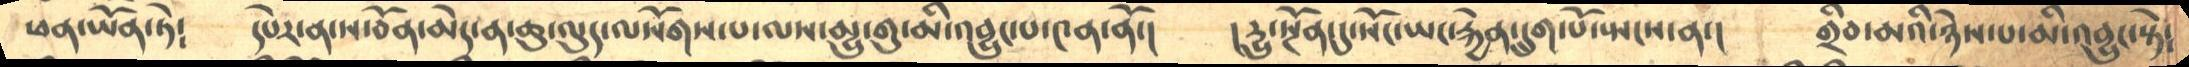ཕན་ཡོན་ཏེ༴   དཔེར་ན་ས་བོན་མེད་ན་ཆུ་ལུད་ལསོགས་པ་ལས་མྱུ་གུ་མི་འབྱུང་པ་༤ན་ནོ་།    །དྱུ་སྔོན་དུ་སོང་ཡང་རྐྱེན་དརུག་པོ་སྤངས་ན་།     གྲིབ་མའི་ཉེས་པ་མི་འབྱུང་སྟེ།
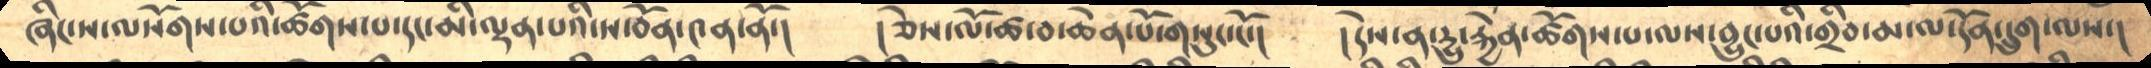ཞིང་ས་ལསོགས་པའི་ཚོགས་པ་དང་མི་ལྡན་པའི་ས་བོན་༤ན་ནོ་།     །ཅེས་ལོ་ཙ་བ་ཆེན་པོ་གསུང་ངོ་།     །དེས་ན་དྱུ་རྐྱེན་ཚོགས་པ་ལས་བྱུང་པའི་གྲིབ་མ་ལ་དོན་དྲུག་ལས་།
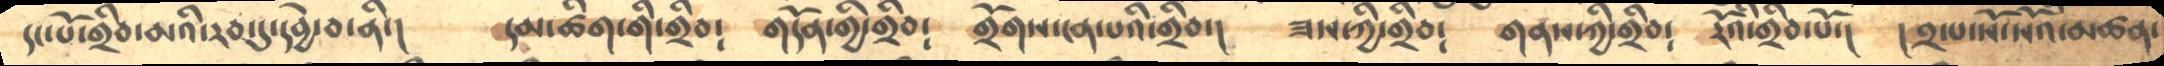དང་པོ་གྲིབ་མའི་རབ་དུ་དབྱེ་བ་ནི་།     དམ་ཚིག་གི་གྲིབ༴    གདོན་གྱི་གྲིབ༴    གྲོགས་ངན་པའི་གྲིབ་།     ཟས་ཀྱི་གྲིབ༴   གནས་ཀྱི་གྲིབ༴  རོའི་གྲིབ་པོ་།    །༢་པ་སོ་སོའི་མཚན་
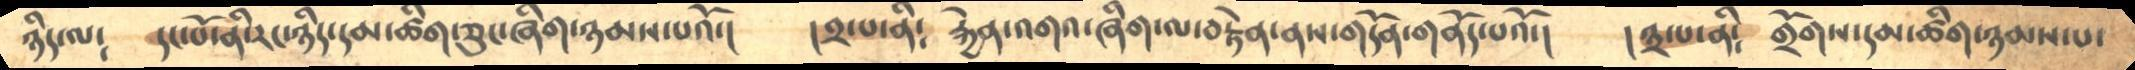ཉིད་ལ༴    དང་པོ་ནི་རང་ཉིད་དམ་ཚིག་ཅུང་ཞིག་ཉམས་པའོ་།    །༢་པ་ནི༴    རྐྱེན་འགའ་ཞིག་ལ་བརྟེན་ནས་གདོན་གནོད་པའོ་།   །༣་པ་ནི༴    གྲོགས་དམ་ཚིག་ཉམས་པ་
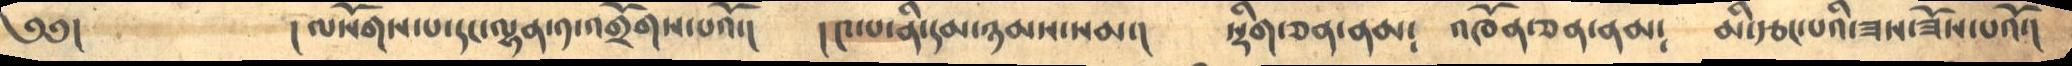༄༅།          །ལསོགས་པ་དང་ལྷན་༡་འགྲོགས་པའོ་།     །༤་པ་ནི་དམ་ཉམས་སམ་།   སྡིག་ཅན་ནམ༴    འཁོན་ཅན་ནམ༴    མི་རྩང་པའི་ཟས་ཟོས་པའོ་།
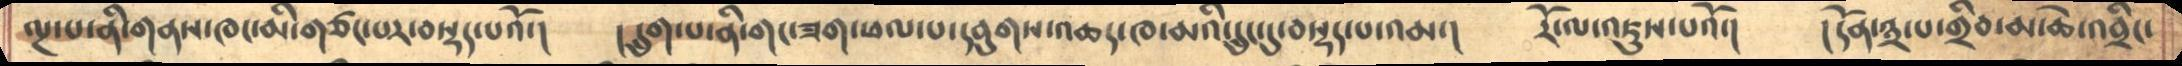ལྔ་པ་ནི་གནས་ཁང་མི་གཙང་པར་བསྡད་པའོ་།   །དྲུག་པ་ནི་གང་ཟག་ཕལ་པ་དབུགས་འཆད་ཁ་མའི་དྲུང་དུ་བསྡད་པ་འམ་།    རོ་ལ་འཇུས་པའོ་།   །དོན་༣་པ་གྲིབ་མ་ཆེ་འབྲིང་
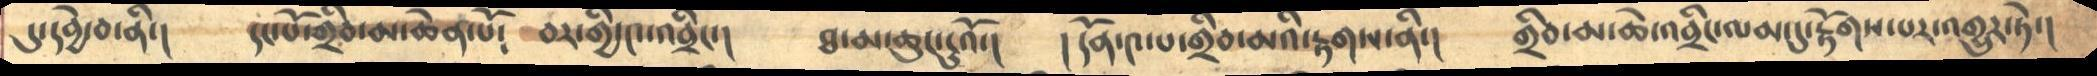དུ་དབྱེ་བ་ནི་།    དང་པོ་གྲིབ་མ་ཆེན་པོ༴    བར་གྱི་༤་འབྲིང་།     ཐ་མ་ཆུང་ངུའོ་།   །དོན་༤་པ་གྲིབ་མའི་རྟགས་ནི་།    གྲིབ་མ་ཆེ་འབྲིང་ལམ་དུ་རྟོགས་པར་འགྱུར་ཏེ་།
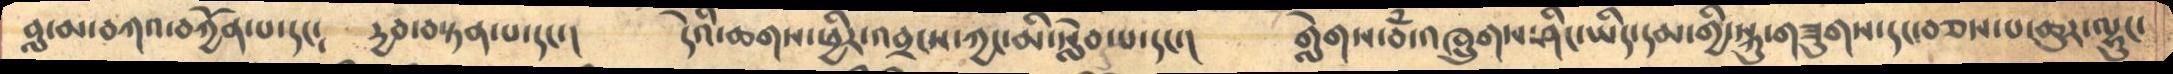བླ་མ་བཀའ་བཀྱོན་པ་དང༴    དྱབ་བསྟན་པ་དང་།      དེའི་ཆགས་ཕྱིར་འབྲངས་ཀྱང་མི་སླེབ་པ་དང་།      གླེགས་བྃ་འཁྲུགས་ཤིང་ཡིད་དམ་གྱི་སྐུ་གཟུགས་དང་བཅས་པ་ཆུར་ལྷུང་
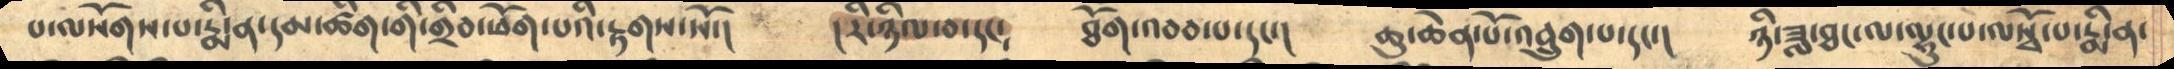པ་ལ་སོགས་པ་སྨིན་དམ་ཚིག་གི་གྲིབ་ཕོག་པའི་རྟགས་སོ་།    །རི་ཉིལ་བ་དང༴   ཐོག་འབབ་པ་དང་།   ཆུ་ཆེན་པོ་འབྲུག་པ་དང་།   ཉི་ཟླ་ཐང་ལ་ལྷུང་པ་ལསྭོ་པ་རྨི་ན་
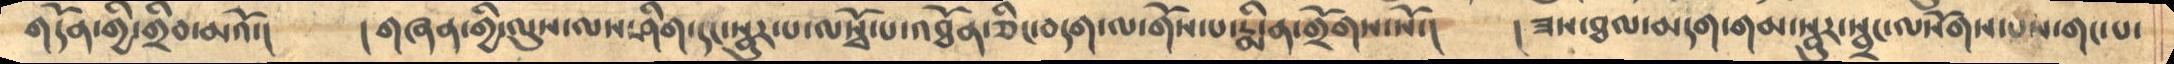གདོན་གྱི་གྲིབ་མའོ་།    །གཞན་གྱི་ལུས་ལས་ཤིག་དང་སྦུར་པ་ལསྭོ་པ་འཐོན་ཅིང་བདག་ལ་གོས་པ་རྨི་ན་གྲོགས་སོ་།   །ཟས་ཐལ་མདག་གམ་སྦུར་སྦྲང་ལསོགས་པས་གང་པ་
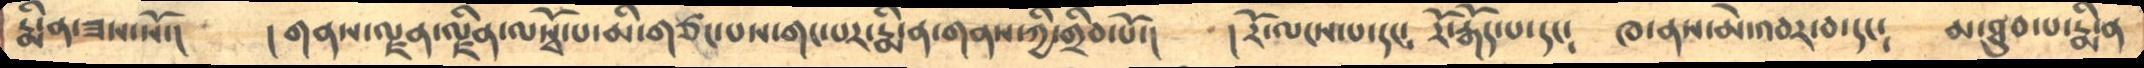རྨི་ན་ཟས་སོ་།    །གནས་ལྗན་ལྗིན་ལསྭོ་པ་མི་གཙང་པས་གང་པར་རྨི་ན་གནས་ཀྱི་གྲིབ་པོ་།   །རོ་ལངས་པ་དང༴   རོ་རྒོད་པ་དང༴   ཁ་ནས་མེ་འབར་བ་དང༴    མ་ཐུབ་པ་རྨི་ན
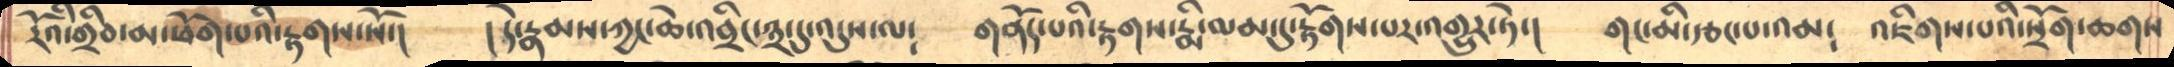རོའི་གྲིབ་མ་ཕོག་པའི་རྟགས་སོ་།   །དེ་རྣམས་ཀྱང་ཆེ་འབྲིང་༣་དུ་འདུས་ལ༴   གནོད་པའི་རྟགས་རྨི་ལམ་དུ་རྟོགས་པར་འགྱུར་ཏེ་།    གང་མི་རྩང་པ་འམ༴    འཇིགས་པའི་སྲོག་ཆགས་
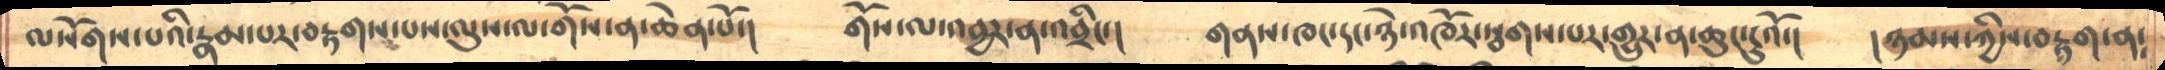ལསོགས་པའི་རྣམ་པར་བརྟགས་པས་ལུས་ལ་གོས་ན་ཆེན་པོ་།    གོས་ལ་འབྱར་ན་འབྲིང་།    གནས་ཁང་དང་ཉེ་འཁོར་སྦགས་པར་གྱུར་ན་ཆུངདུའོ་།     །ཉམས་ཀྱིས་བརྟག་ན༴
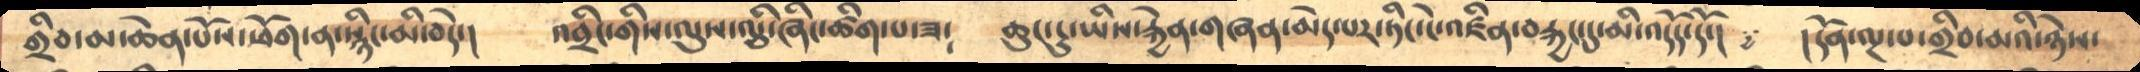གྲིབ་མ་ཆེན་པོས་ཕོག་ན་སྙིང་མི་བདེ་།    འབྲིང་གིས་ལུས་ལྕི་ཞིང་ཚིག་པ་ཟ༴     ཆུང་ངུ་ཡིས་རྐྱེན་གཞན་མེད་པར་ཏིང་ངེ་འཛིན་བརྐྱང་དུ་མི་འདོད་དོ་།    །དོན་ལྔ་པ་གྲིབ་མའི་ཉེས་
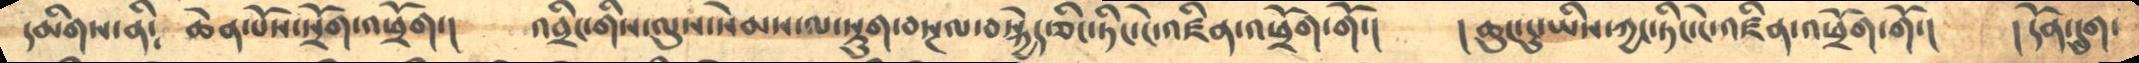དམིགས་ནི༴   ཆེན་པོས་སྲོག་འཕྲོག་།    འབྲིང་གིས་ལུས་སེམས་ལ་སྡུག་བསྔལ་བསྐྱེད་ཅིང་ཏིང་ངེ་འཛིན་འཕྲོག་གོ་།   །ཆུང་ངུ་ཡིས་ཀྱང་ཏིང་ངེ་འཛིན་འཕྲོག་གོ་།    །དོན་དྲུག
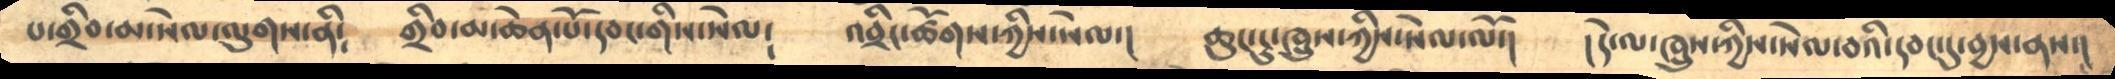པ་གྲིབ་མ་སེལ་ལུགས་ནི༴    གྲིབ་མ་ཆེན་པོ་དབང་གིས་སེལ༴    འབྲིང་ཚོགས་ཀྱིས་སེལ་།   ཆུངངུ་ཁྲུས་ཀྱིས་སེལ་ལོ་།   །དེ་ལ་ཁྲུས་ཀྱིས་སེལ་བའི་དབང་དུ་བྱས་ནས་།
